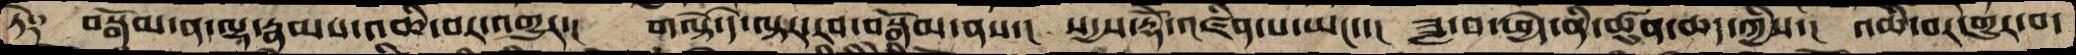ཏེ༑  བསྒོམ་ན་ལྷ་རྣམས་འཆི་བར་འགྱུར་།  གལྟེ་དེ་ལྟར་རབ་བསྒོམ་ནས་།  སདྱས་རྡོེ་འཛིན་པ་ཡང་་།  ཟླ་བ་ཕྱེད་ནི་ཚུན་ཆད་ཀྱིས་།  འཆི་བར་གྱུར་པ་
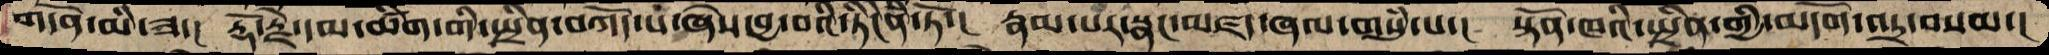གདོན་མི་ཟ་།  རྡོ་རྗེ་དམ་ཚིག་གི་སྤྲིན་བཀོད་པ་ཞེས་བྱ་བའི་ཏིངེཛིན་ཏོ་།  རྣམ་པར་སྣང་མཛད་ཞལ་གསུཾ་པ་།  སྟོན་ཁའི་སྤྲིན་གྱི་མདོག་འདྲ་བསམ་།
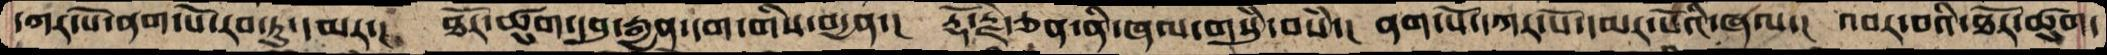དཀར་པོ་ནག་པོ་རབ་ཏུ་དམར་།  ཐོར་ཚུག་དབུ་རྒྱན་དག་གིས་བདྱན་།  རྡོ་རྗེ་ཅན་ནི་ཞལ་གསུཾ་བསཾ་།  ནག་པོ་དཀར་པོ་དམར་པོའི་ཞལ་།  འབར་བའི་ཐོར་ཚུག་
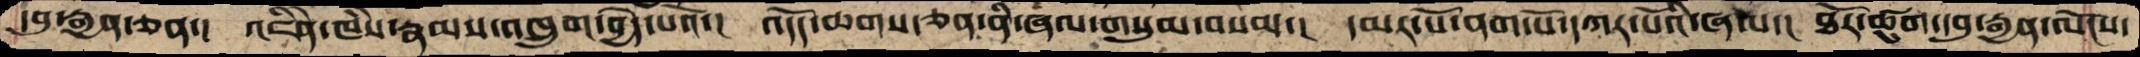དབུ་རྒྱན་ཅན་།  འཇིེན་ཁཾས་རྣམས་འཁྲུག་བྱེད་པའོ་།  འདོད་ཆགས་ཅན་ནི་ཞལ་གསུམ་བསམ་།  དམར་པོ་ནག་པོ་དཀར་པོའི་ཞལ་།  ཐོར་ཚུག་དབུ་རྒྱན་ལོངས་
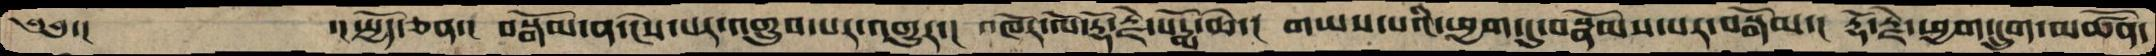༄༅་།   སྤྱོད་ཅན་།  བསྒོམ་ན་ངེས་པར་འགྲུབ་པར་འགྱུར་།  འཁོར་ལོ་རྡོ་རྗེ་པདྨོ་ཆེ་།  གཡས་པའི་ཕྱག་དུ་བསྣོམས་པར་བསྒོམ་།  རྡོ་རྗེ་ཕྱག་དྲུག་མཚོན་
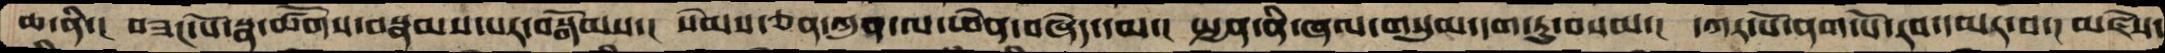ཆ་ནིི་།  བཟང་པོ་སྣ་ཚོགས་བསྣམས་པར་བསྒོམས་།  སེམས་ཅན་ཀུན་ལ་ཕེན་བཞེད་དམ་།  སྤྱན་ནི་ཞལ་གསུམ་དག་ཏུ་བསམ་།  དཀར་པོ་ནག་པོ་རབ་དམར་བ་།  མཛེས་
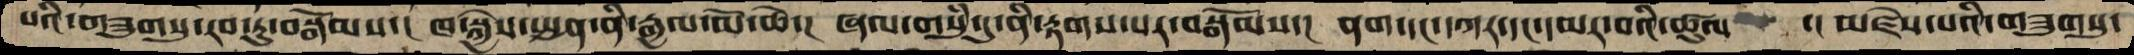པའི་གཟུགས་སུ་རབ་ཏུ་བསྒོམས་།  ཁ་སྐྱེས་སྤྱན་ནི་རྒྱལ་མོ་ཆེ་།  ཞལ་གསུཾ་དུ་ནི་རྟགས་པར་བསྒོམས་།  ནག་དང་དཀར་དང་དམར་བའི་ཚུལ  ་།  མཛེས་པའི་གཟུགསུ་
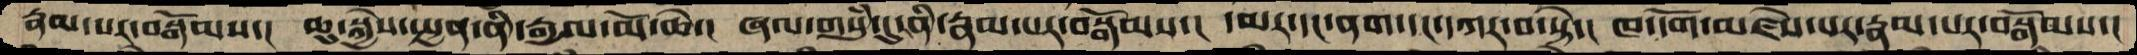རྣམ་པར་བསྒོམས་།  ཆུ་སྐྱེས་སྤྱན་ནི་རྒྱལ་མོ་ཆེ་།  ཞལ་གསུཾ་དུ་ནི་རྣམ་པར་བསྒོམས་།  དམར་དང་ནག་དང་དཀར་བ་སྟེ་།  ཁ་དོག་མཛེས་པར་རྣམ་པར་བསྒོམས་།
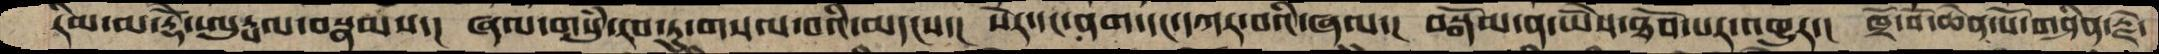རིམ་མ་རྡོེ་ཨུཏྤལ་བསྣམས་།  ཞལ་གསུཾ་རབ་ཏུ་གསལ་བའི་མདངས་།  སེར་དང་ནག་དང་དཀར་བའི་ཞལ་།  བསྒོམ་ན་ཡཻས་ཐོབ་པར་འགྱུར་།  ཁྲོ་བོ་ཆེན་པོ་གཤིན་རྗེ་
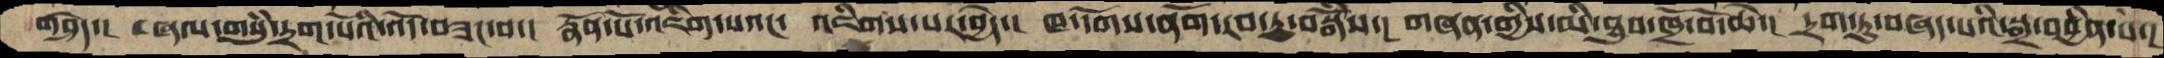གཤེད་།  ཞལ་གསུཾ་དྲག་པོའི་འོད་བཟང་བ་།  རྣོན་པོ་འཇིག་པའང་  འཇིགས་པར་བྱེད་།  ཁ་དོགས་ནོག་རབ་ཏུ་བསྒོཾས་།  གཞན་གྱིས་མི་ཐུབ་ཁྲོ་བོ་ཆེ་།  དྲག་ཏུ་བཞད་པའི་སྒྲ་འབྱིན་པ་།
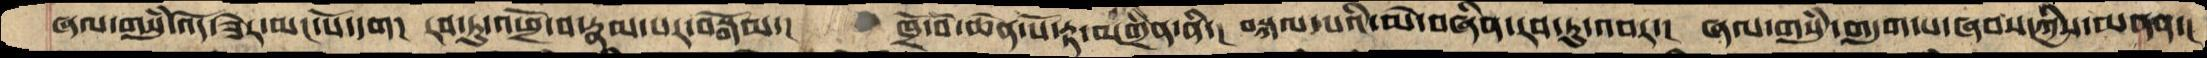ཞལ་གསུཾ་འོད་ཟེར་མང་པོ་དག།  རབ་ཏུ་འཕྲོ་བ་རྣམ་པར་བསྒོམ་།  ཁྲོ་བོ་ཆེན་པོ་རྟ་མགྲིན་ནི་།  བསྐལ་པའི་མེ་བཞིན་རབ་ཏུ་འབར་།  ཞལ་གསུཾ་གདུག་པ་ཞབས་ཀྱིས་མནན་།
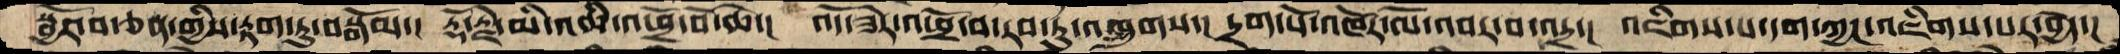སྦྱོར་བ་ཅན་གྱིས་རྟག་ཏུ་བསྒོམ་།  རྡོ་རྗེ་མི་འཆི་འཕྲོ་བོ་ཆེ་།  འདོ་ཟེར་འཕྲོ་བ་རབ་ཏུ་འཁྲུགས་།  དྲག་པོ་འཁོར་ལོ་འབར་བ་འདྲ་།  འཇིགས་པ་དག་ཀྱང་འཇིགས་པར་བྱེད་།
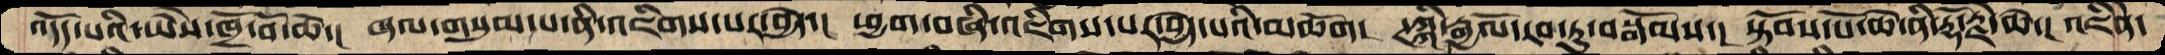འདོད་པའི་ཡཻས་ཁྲོ་བོ་ཆེ་།  ཞལ་གསུམ་པ་ནི་འཇིགས་པར་བྱེད་།  ཕྱག་བཞི་འཇིགས་པར་བྱེད་པའི་མཆོག།  ཊཀྐི་རྒྱལོ་རབ་ཏུ་བསྒོམས་།  སྟོབས་པོ་ཆེ་ནི་རྡོ་རྗེ་ཆེ་།  འཇིནེ་
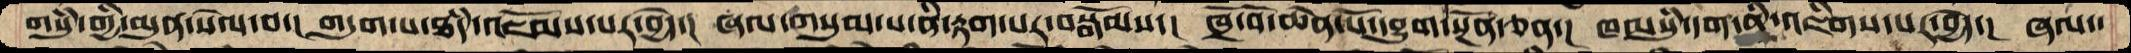གསུཾ་གྱི་མུན་སེལ་བ་།  གདུག་པ་ཐཾད་འཇོམས་པར་བྱེད་།  ཞལ་གསུམ་པ་ནི་རྟག་པར་བསྒོམས་།  ཁྲོ་བོ་ཆེན་པོ་དབྱུག་སྔོན་ཅན་།  ཁམསུཾ་དག་ནི་འཇིགས་པར་བྱེད་།   ཞལ་
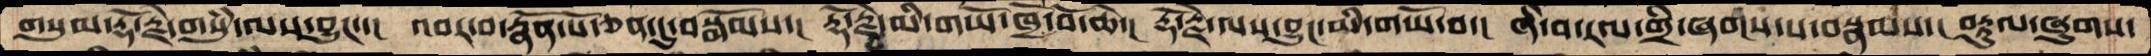གསུམ་རྡོ་རྗེ་གསུཾ་ལས་བྱུང་་།  འབར་བ་རྣོན་པོ་ཅན་དུ་བསྒོམས་།  རྡོ་རྗེ་མི་གཡོ་ཁྲོ་བོ་ཆེ་།  རྡོ་རྗེ་ལས་བྱུང་མི་གཡོ་བ་།  ཞི་བ་རལ་གྲི་ཞགས་པ་བསྣམས་།  བརྟུལ་ཞུགས་
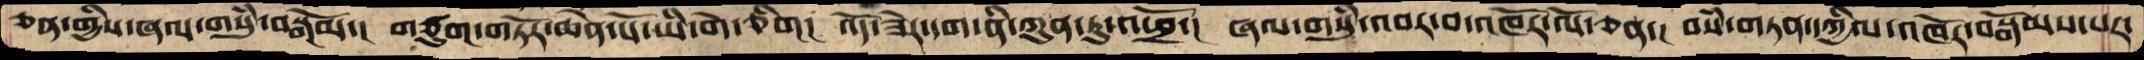ཅན་གྱིས་ཞལ་གསུཾ་བསྒོམ་།  གཙུག་གཏོར་ཆེན་པོ་ཡི་གེ་ཅིག།  འོད་ཟེར་དག་ནི་ཀུན་ཏུ་འཕྲོ་།  ཞལ་གསུཾ་འབར་བ་འཁོར་ལོ་ཅན་།  བསཾ་གཏན་དཀྱིལ་འཁོར་བསྒོམས་པར་
